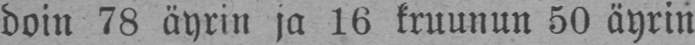doin 78 äyrin ja 16 kruunun 50 äyrin
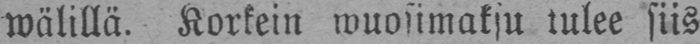wälillä. Korkein wuosimaksu tulee siis
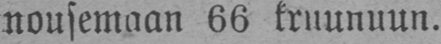nousemaan 66 kruunuun.
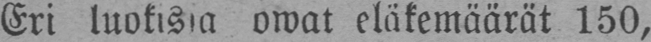Eri luokista owat eläkemäärät 150,
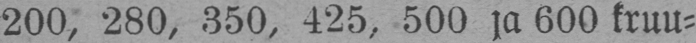200, 280, 350, 425, 500 ja 600 kruu-
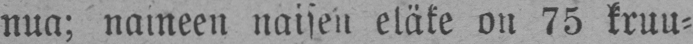nua; naineen naisen eläke on 75 kruu-
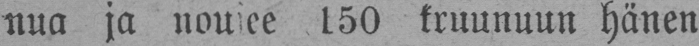nua ja nousee 150 kruunuun hänen
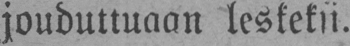jouduttuaan leskeksi.
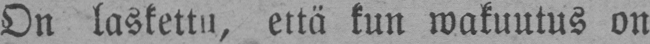On laskettu, että kun wakuutus on
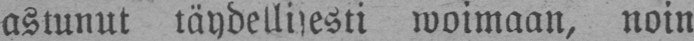astunut täydellisesti woimaan, noin
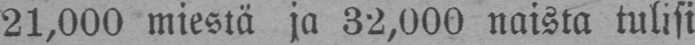21.000 miestä ja 32,000 naista tulisi
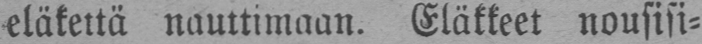eläkettä nauttimaan. Eläkkeet nousisi-
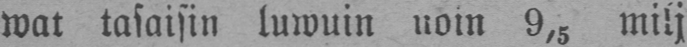wat tasaisin luwuin noin 9,5 milj
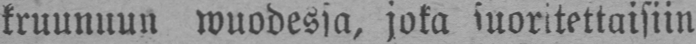kruunuun wuodessa, joka suoritettaisiin
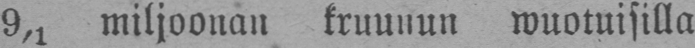9,1 miljoonan kruunun wuotuisilla
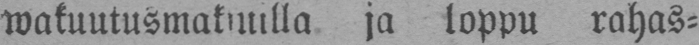wakuutusmaksuilla ja loppu rahas-
